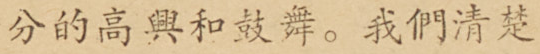分的高興和鼓舞。我們清楚
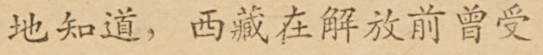地知道，西藏在解放前曾受
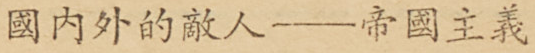國內外的敵人——帝國主義
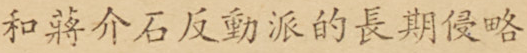和蔣介石反動派的長期侵略
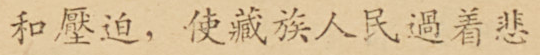和壓迫，使藏族人民過着悲
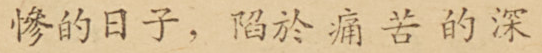慘的日子，陷於痛苦的深
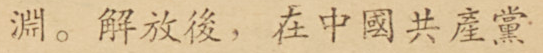淵。解放後，在中國共產黨
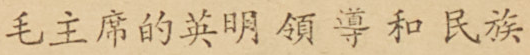毛主席的英明領導和民族
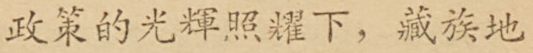政策的光輝照耀下，藏族地
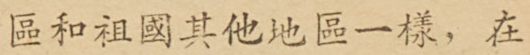區和祖國其他地區一樣，在
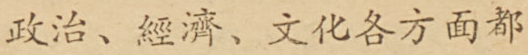政治、經濟、文化各方面都
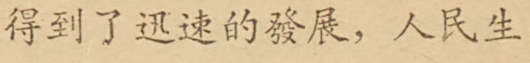得到了迅速的發展，人民生
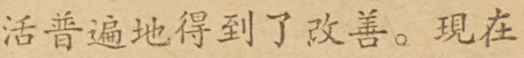活普遍地得到了改善。現在
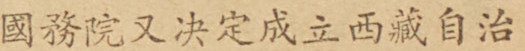國務院又決定成立西藏自治
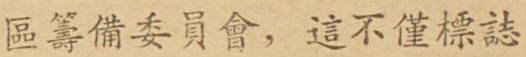區籌備委員會，這不僅標誌
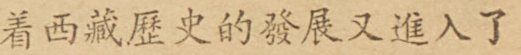着西藏歷史的發展又進入了
